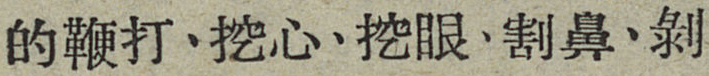的鞭打、挖心、挖眼、割鼻、剝
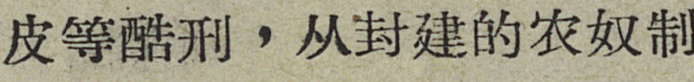皮等酷刑，从封建的农奴制
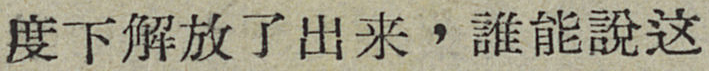度下解放了出来，誰能說这
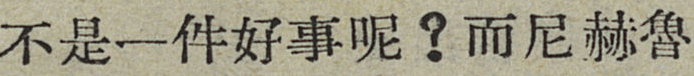不是一件好事呢？而尼赫魯
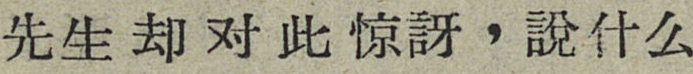先生却对此惊訝，說什么
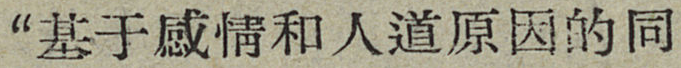“基于感情和人道原因的同
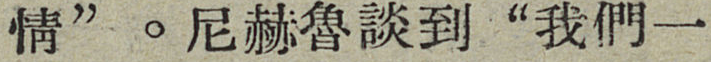情”。尼赫魯談到“我們一
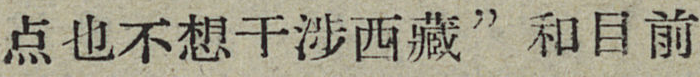点也不想干涉西藏”和目前
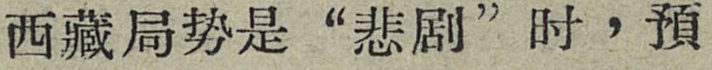西藏局势是“悲剧”时，預
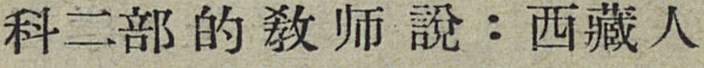科二部的敎师說：西藏人
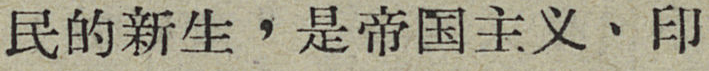民的新生，是帝国主义，印
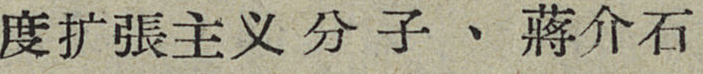度扩張主义分子、蒋介石
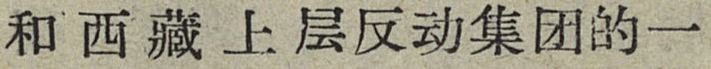和西藏上层反动集团的一
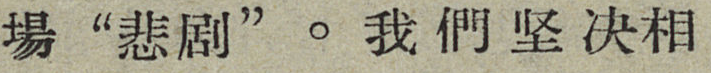場“悲剧”。我們坚决相
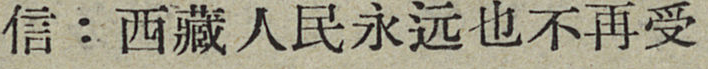信：西藏人民永远也不再受
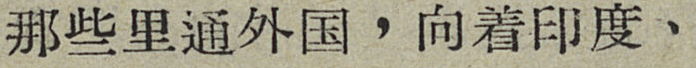那些里通外国，向着印度、
